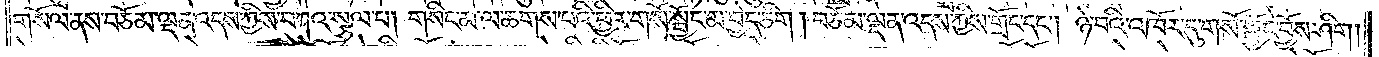གསོལ་ནས་བཅོམ་ལྡན་འདས་ཀྱིས་བཀའ་སྩལ་པ། གསིང་མ་ལ་ཆགས་པའི་ཕྱིར་གསོ་སྦྱོང་མ་བྱེད་ཅིག །བཅོམ་ལྡན་འདས་ཀྱིས་གྲོང་དང༌། ཉེ་བའི་འཁོར་དུ་གསོ་སྦྱོང་བྱོས་ཤིག །
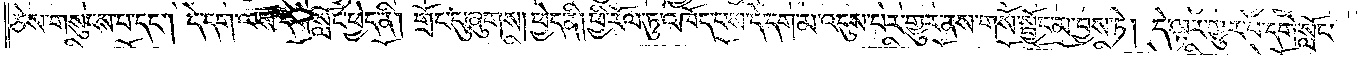ཅེས་གསུངས་པ་དང༌། དེ་དག་ལས་དགེ་སློང་ཕྱེད་ནི། གྲོང་དུ་ཞུགས་།ཕྱེད་ནི། ཕྱི་རོལ་དུ་འཁོད་པས་དེ་དག་མ་འདུས་པར་གྱུར་ནས་གསོ་སྦྱོང་མ་བྱས་ཏེ། དེ་ལྟར་གྱུར་པ་དགེ་སློང་
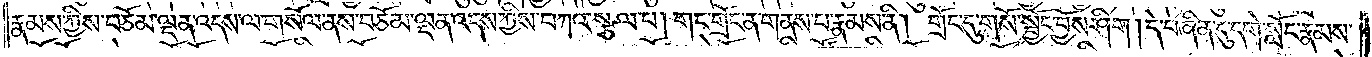རྣམས་ཀྱིས་བཅོམ་ལྡན་འདས་ལ་གསོལ་ནས་བཅོམ་ལྡན་འདས་ཀྱིས་བཀའ་སྩལ་པ། གང་གྲོང་ན་གནས་པ་རྣམས་ནི། གྲོང་དུ་གསོ་སྦྱོང་བྱོས་ཤིག །དེ་བཞིན་དུ་དགེ་སློང་རྣམས་
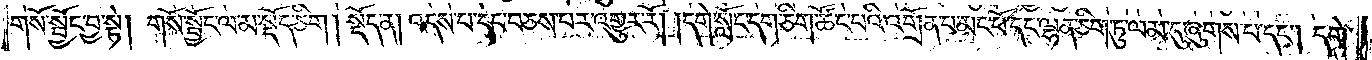གསོ་སྦྱོང་བྱ་སྟེ། གསོ་སྦྱོང་ལ་མ་སྡོད་ཅིག །སྡོད་ན། འདས་པ་དང་བཅས་པར་འགྱུར་རོ། །དགེ་སློང་དག་ཅིག་ཚོང་པའི་འགྲོན་པ་མང་པོ་དང་ལྷན་ཅིག་ཏུ་ལམ་དུ་ཞུགས་པ་དང༌། དགེ་
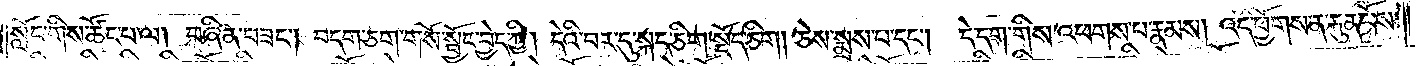སློང་གིས་ཚོང་པ་ལ། བཞིན་བཟང༌། བདག་ཅག་གསོ་སྦྱོང་བྱེད་ཀྱི། དེའི་བར་དུ་སྐད་ཅིག་སྡོད་ཅིག །ཅེས་སྨྲས་པ་དང༌། དེ་དག་གིས་འཕགས་པ་རྣམས། འདི་ཕྱོགས་ན་རྐུན་པོས་
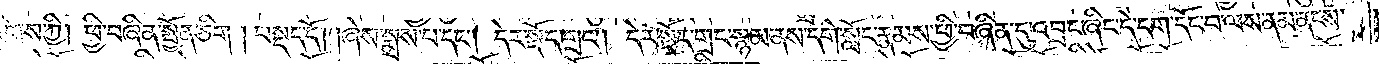འཇིགས་ཀྱི། ཕྱི་བཞིན་སྤྱོན་ཅིག །བསྡད་དོ། །ཞེས་སྨྲས་པ་དང༌། དེར་སྡོད་གྲང༌། དེར་སྡོད་གྲང་སྙམ་ནས་དགེ་སློང་རྣམས་ཕྱི་བཞིན་དུ་འབྲང་ཞིང་དེ་དག་དོང་བ་ལས་ནམ་ནངས་
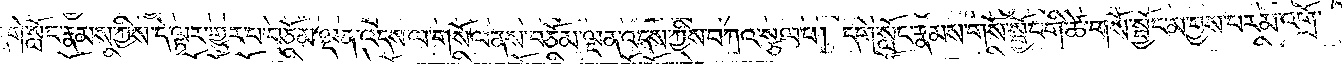སོ། །དགེ་སློང་རྣམས་ཀྱིས་དེ་ལྟར་གྱུར་པ་བཅོམ་ལྡན་འདས་ལ་གསོལ་ནས་བཅོམ་ལྡན་འདས་ཀྱིས་བཀའ་སྩལ་པ། དགེ་སློང་རྣམས་གསོ་སྦྱོང་གི་ཚེ་གསོ་སྦྱོང་མ་བྱས་པར་མ་འགྲོ་
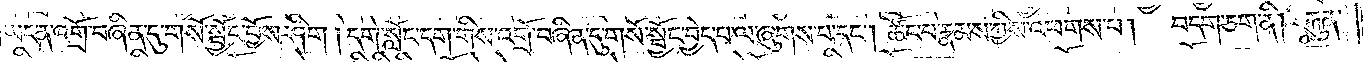ཞིག །ཡང་ན་འགྲོ་བཞིན་དུ་གསོ་སྦྱོང་བྱོས་ཤིག །དགེ་སློང་དག་གིས་འགྲོ་བཞིན་དུ་གསོ་སྦྱོང་བྱེད་པ་ལ་ཞུགས་པ་དང༌། ཚོང་པ་རྣམས་ཀྱིས་འཕགས་པ། བདག་ཅག་ནི། རྐུན་
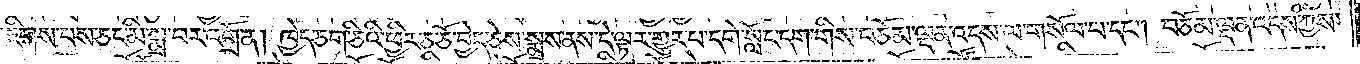པོས་འཇིགས་པས་ཅང་མི་སྨྲ་བར་འགྲོ་ན། ཁྱེད་ཅག་ཅིའི་ཕྱིར་ཅ་ཅོ་བྱེད་ཅེས་སྨྲས་ནས་དེ་ལྟར་གྱུར་པ་དགེ་སློང་དག་གིས་བཅོམ་ལྡན་འདས་ལ་གསོལ་པ་དང༌། བཅོམ་ལྡན་འདས་ཀྱིས་
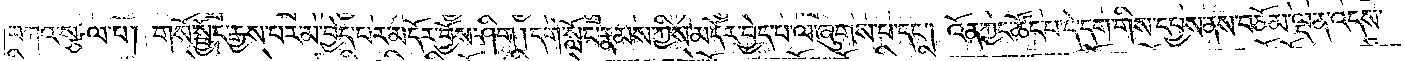བཀའ་སྩལ་པ། གསོ་སྦྱོང་རྒྱས་པར་མ་བྱེད་པར་མདོར་བྱོས་ཤིག །དགེ་སློང་རྣམས་ཀྱིས་མདོར་བྱེད་པ་ལ་ཞུགས་པ་དང༌། འོན་ཀྱང་ཚོང་པ་དེ་དག་གིས་དཔྱས་ནས་བཅོམ་ལྡན་འདས་
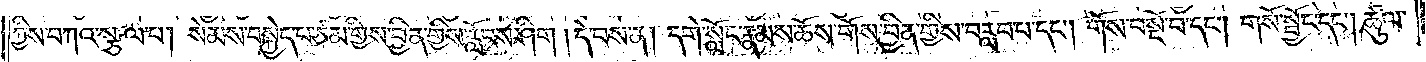ཀྱིས་བཀའ་སྩལ་པ། སེམས་བསྐྱེད་པ་ཙམ་གྱིས་བྱིན་གྱིས་རློབས་ཤིག །དེ་བས་ན། དགེ་སློང་རྣམས་ཆོས་གོས་བྱིན་གྱིས་བརླབ་པ་དང༌། གོས་བསྔོ་བ་དང༌། གསོ་སྦྱོང་དང༌། ཚུལ་
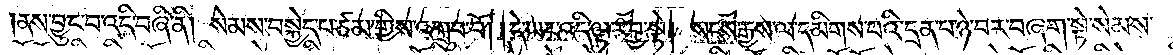ནས་བྱུང་བ་འདི་བཞི་ནི། སེམས་བསྐྱེད་པ་ཙམ་གྱིས་འགྲུབ་བོ། །དེ་ཡང་འདི་ལྟར་བྱ་སྟེ། སངས་རྒྱས་ལ་དམིགས་པའི་དྲན་པ་ཉེ་བར་བཞག་སྟེ་སེམས་
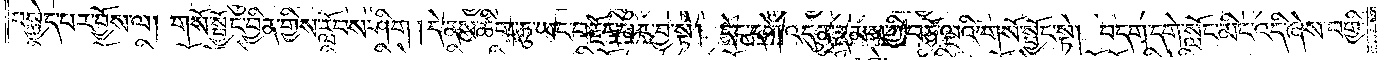བསྐྱེད་པར་བྱོས་ལ། གསོ་སྦྱོང་བྱིན་གྱིས་རློབས་ཤིག །དེ་ནས་ཚིག་ཏུ་ཡང་བརྗོད་པར་བྱ་སྟེ། དེང་དགེ་འདུན་རྣམས་ཀྱི་བཅོ་ལྔའི་གསོ་སྦྱོང་སྟེ། བདག་དགེ་སློང་མིང་འདི་ཞེས་བགྱི་
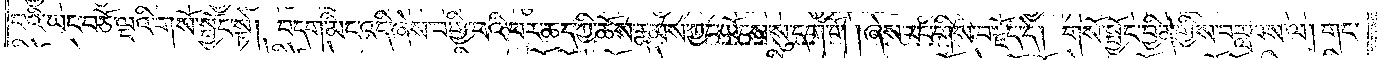བའི་ཡང་བཅོ་ལྔའི་གསོ་སྦྱོང་སྟེ། བདག་མིང་འདི་ཞེས་བགྱི་བའི་བར་ཆད་ཀྱི་ཆོས་རྣམས་ཀྱང་ཡོངས་སུ་དག་གོ །ཞེས་རང་གིས་བརྗོད་དེ། གསོ་སྦྱོང་བྱིན་གྱིས་བརླབས་ལ། གང་
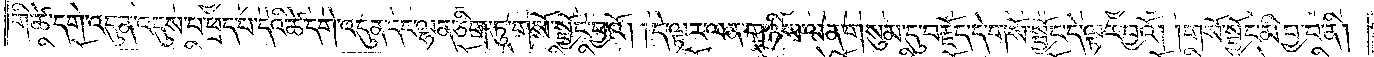གི་ཚེ་དགེ་འདུན་འདུས་པ་ཕྲད་པ་དེའི་ཚེ་དགེ་འདུན་དང་ལྷན་ཅིག་ཏུ་གསོ་སྦྱོང་བྱའོ། །དེ་ལྟར་ལན་གཉིས་ལན་གསུམ་དུ་བརྗོད་དེ་གསོ་སྦྱོང་དེ་ལྟར་བྱའོ། །གསོ་སྦྱོང་མི་བྱ་བ་ནི།
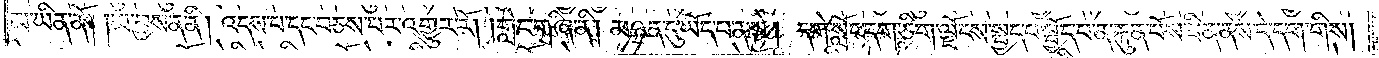མ་ཡིན་ནོ། །མ་བྱས་ན་ནི། འདས་པ་དང་བཅས་པར་འགྱུར་རོ། །གླེང་གཞི་ནི། མཉན་དུ་ཡོད་པ་ན་སྟེ། དགེ་སློང་དག་ཅིག་ལྗོངས་སྤྱད་པ་སྤྱོད་པ་ན་རྐུན་པོས་ཟིན་ནས་དེ་དག་གིས།
